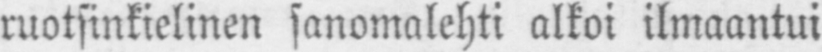ruotsinkielinen sanomalehti alkoi ilmaantui
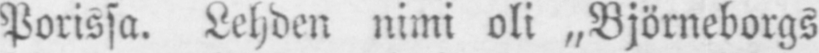Porissa. Lehden nimi oli „Björneborgs
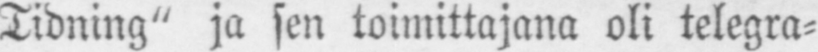Tidning" ja sen toimittajana oli telegra-
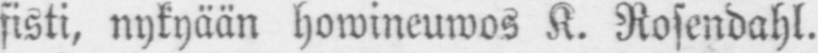fist, nykyään howineuwos K. Rosendahl.
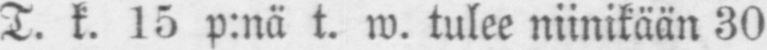T. k. 15 p:nä t. w. tulee niinikään 30
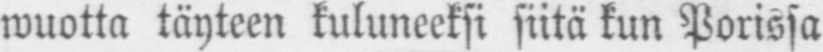wuotta täyteen kuluneeksi siitä kun Porissa
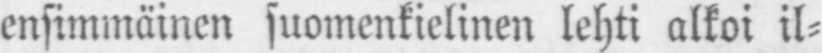ensimmäinen suomenkielinen lehti alkoi il-
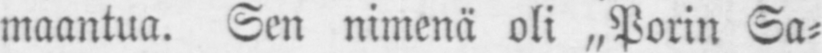maantua. Sen nimenä oli „Porin Sa-
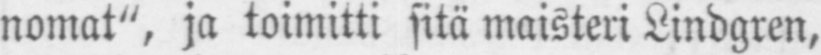nomat", ja toimitti sitä maisteri Lindgren,
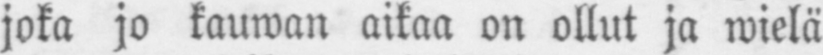joka jo kauwan aikaa on ollut ja wielä
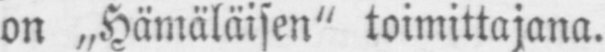on »Hämäläisen" toimittajana.
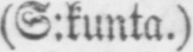(S:kunta.)
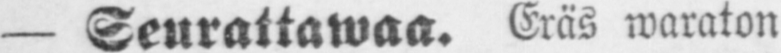— Seurattawaa. Eräs waraton
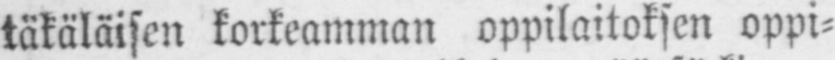täkäläisen korkeamman oppilaitoksen oppi-
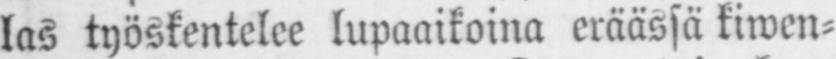las työskentelee lupaaikoina eräässä kiwen-
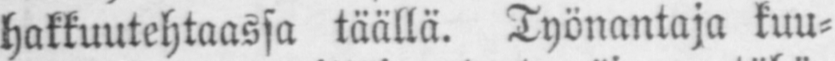hakkuutehtaassa täällä. Työnantaja kuu-
